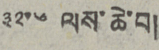༣༢.༦  ལས་ཆེ་བ།
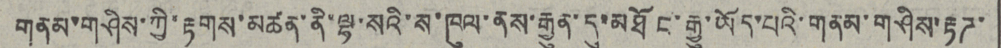གནམ་གཤིས་ཀྱི་རྟགས་མཚན་ནི་ལྷ་སའི་ས་ཁུལ་ནས་རྒྱུན་དུ་མཐོང་རྒྱུ་ཡོད་པའི་གནམ་གཤིས་རྟཌ་
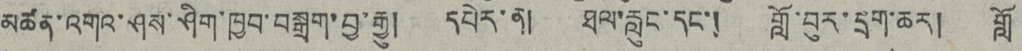མཚན་འགའ་ཤས་ཤིག་ཁྱབ་བསྒྲག་བྱ་རྒྱུ། དཔེར་ན། ཐལ་རླུང་དང་། གློ་བུར་དྲག་ཆར། གློ
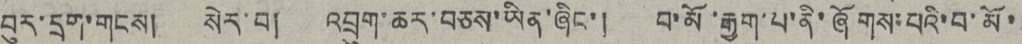བུར་དྲག་གངས། སེར་བ། འབྲུག་ཆར་བཅས་ཡིན་ཞིང་། བ་མོ་རྒྱག་པ་ནི་ཞོགས་པའི་བ་མོ་
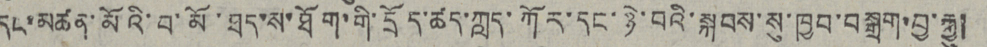དང་མཚན་མོའི་བ་མོ་ཐད་ས་ཐོག་གི་དྲོད་ཚད་ཀླུད་ཀོར་དང་ཉེ་བའི་སྐབས་སུ་ཁྱབ་བསྒྲག་བྱ་རྒྱུ།
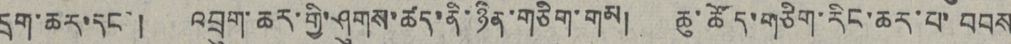དྲག་ཆར་དང་། འབྲུག་ཆར་གྱི་ཤུགས་ཚད་ནི་ཉིན་གཅིག་གམ། ཆུ་ཚོད་གཅིག་རིང་ཆར་པ་བབས
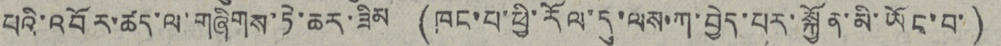པའི་འབོར་ཚད་ལ་གཞིགས་ཏེ་ཆར་ཟིམ (ཁང་པ་ཕྱི་རོལ་དུ་ལས་ཀ་བྱེད་པར་སྐྱོན་མི་ཡོང་བ་)
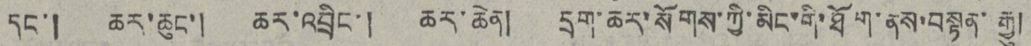དང་། ཆར་ཆུང་། ཆར་འབྲིང་། ཆར་ཆེན། དྲག་ཆར་སོགས་ཀྱི་མིང་གི་ཐོག་ནས་བསྟན་རྒྱུ།
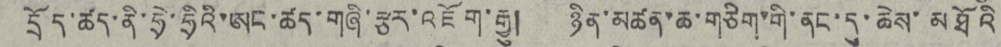དྲོད་ཚད་ནི་ཧྲེ་ཧྲིའི་ཨང་ཚད་གཞི་རྩར་འཇོག་རྒྱུ། ཉིན་མཚན་ཆ་གཅིག་གི་ནང་དུ་ཆེས་མཐོའི
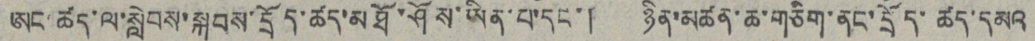ཨང་ཚད་ལ་སླེབས་སྐབས་དྲོད་ཚད་མཐོ་ཤོས་ཡིན་པ་དང་། ཉིན་མཚན་ཆ་གཅིག་ནང་དྲོད་ཚད་དམའ
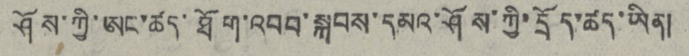ཤོས་ཀྱི་ཨང་ཚད་ཐོག་འབབ་སྐབས་དམའ་ཤོས་ཀྱི་དྲོད་ཚད་ཡིན།
